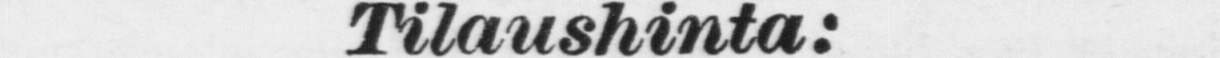Tilaushinta:
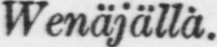Wenäjällä.
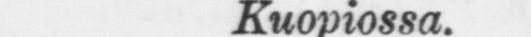Kuopiossa.
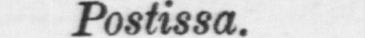Postissa.
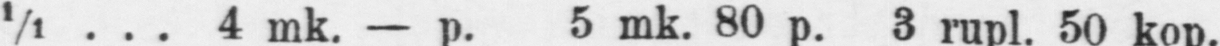1/1 4 mk. — p. 5 mk. 80 p. 3 rupl. 50 kop.
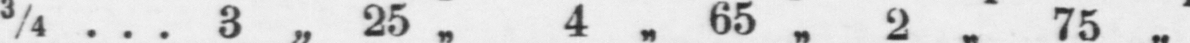¾ 3 „ 25 „ 4 „ 65 „ 2 „ 75 „
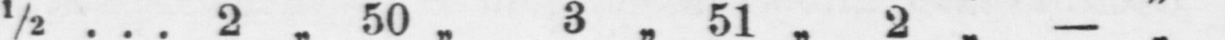½ 2 „ 50 „ 3 „ 51 „ 2 „ - „
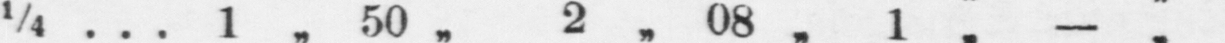¼ 1 „ 50 „ 2 „ 08 „ 1 „ - „
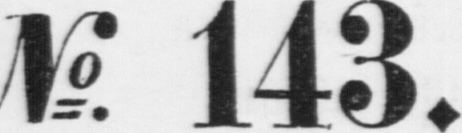No. 143.
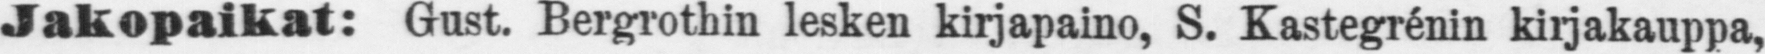Jakopaikat: Gust. lesken kirjapaino, S. kirjakauppa,
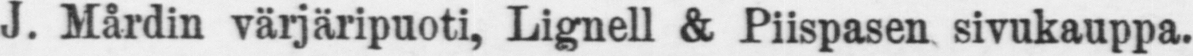J. Mårdin värjäripuoti, Lignell & Piispasen sivukanppa.
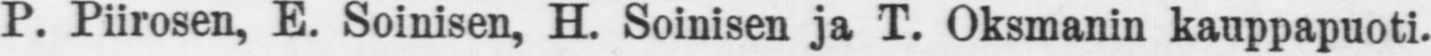P. Piirosen, E. Soinisen, H. Soinisen ja T. Oksmanin kauppapuoti.
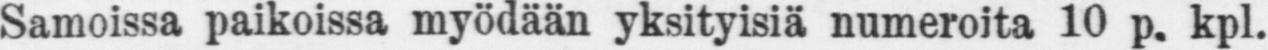Samoissa paikoissa numeroita 10 p. kpl.
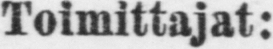Toimittajat:
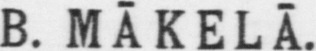A. B. MĀKELĀ .
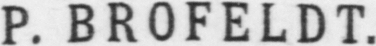P. BROFELDT.
